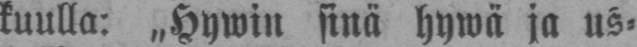kuulla: „Hywin sinä hywä ja us-
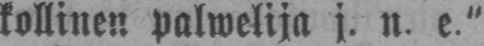kollinen palwelija j. n. e."
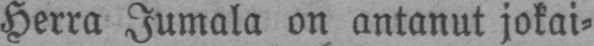Herra Jumala on antanut jokai-
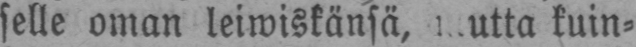selle oman leiwiskänsä, mutta kuin-
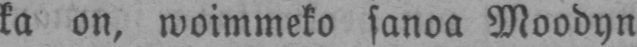ka on. woimmeko sanoa Moodyn
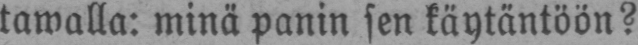tawalla: minä panin sen käytäntöön?
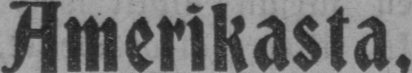Amerikasta.
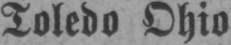Toledo Ohio 25/8 08.
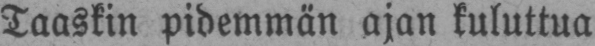Taaskin pidemmän ajan kuluttua
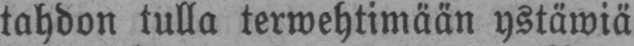tahdon tulla terwehtimään ystäwiä
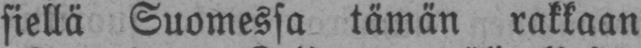siellä Suomessa tämän rakkaan
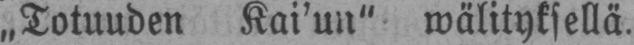„Totuuden Kai'un" wälityksellä.
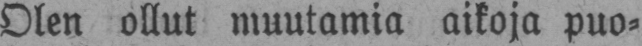Olen ollut muutamia aikoja puo-
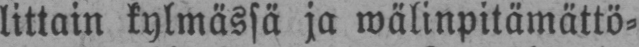littain kylmässä ja wälinpitämättö-
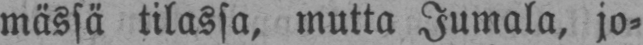mässä tilassa, mutta Jumala, jo-
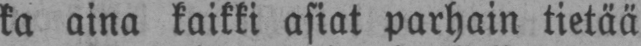ka aina kaikki asiat parhain tietää
